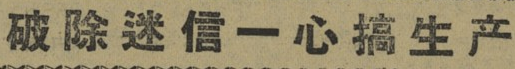破 除 迷 信 一 心 搞 生 产
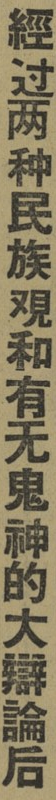經过兩种民族覌和有无鬼神的大辯論后
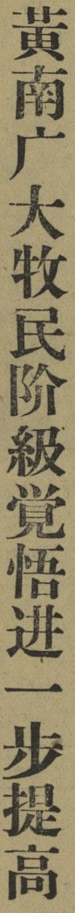黄南广大牧民阶級覚悟进一步提高
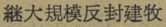継大規模反封建牧
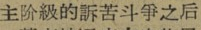主阶級的訴苦斗爭之后
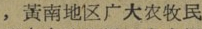，黄南地区广大农牧民
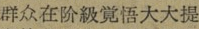群众再阶級覚悟大大提
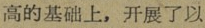高的基础上，开展了以
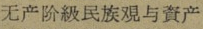无产阶級民族覌与資产
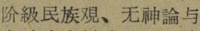阶級民主覌、无神論与
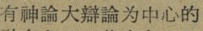有神論大辯論为中心的
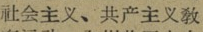社会主义、共产主义敎
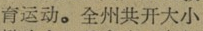育运动。全州共开大小
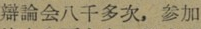辯論会八千多次，参加
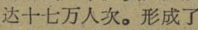达十七万人次。形成了
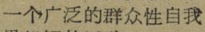一个广泛的群众性自我
